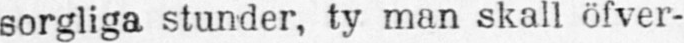sorgliga stunder, ty man skall öfver-
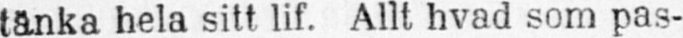tänka hela sitt lif. Allt hvad som pas-
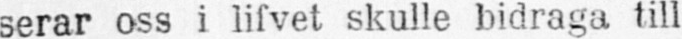serar oss i lifvet skulle bidraga till
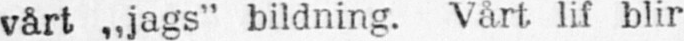vårt „jags“ bildning. Vårt lif blir
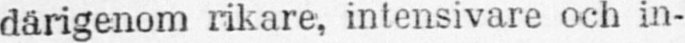därigenom rikare, intensivare och in-
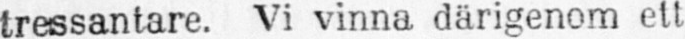tressantare. Vi vinna därigenom ett
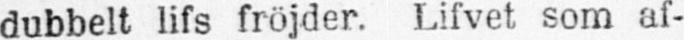dubbelt lifs fröjder. Lifvet som af-
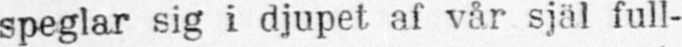speglar sig i djupet af vår själ full-
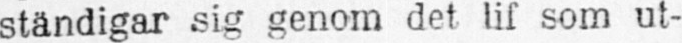ständigar sig genom det lif som ut-
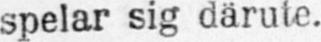spelar sig därute.
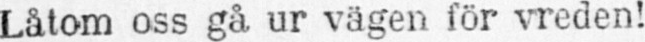Låtom oss gå ur vägen för vreden!
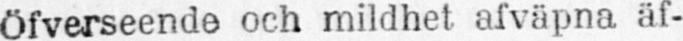Öfverseende och mildhet afväpna äf-
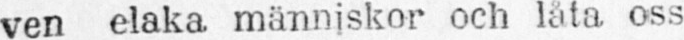ven elaka människor och låta oss
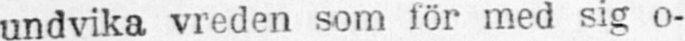undvika vreden som för med sig o-
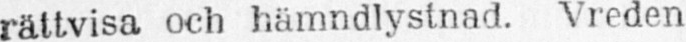rättvisa och hämndlystnad. Vreden
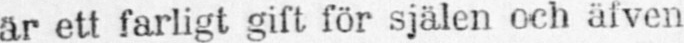är ett farligt gift för själen och äfven
